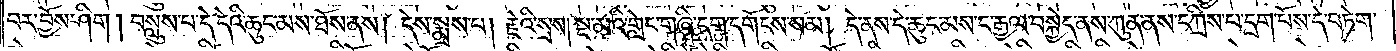བར་བྱོས་ཤིག། བསླུས་པ་དེ་དེའི་ཆུང་མས་ཐོས་ནས། དེས་སྨྲས་པ། རྗེའི་སྲས། སྔ་མའི་གླེང་གཞི་དག་དགོངས་སམ། དེ་ནས་དེ་ཆུང་མས་ང་རྒྱལ་བསྐྱེད་ནས་ཀུན་ནས་དཀྲིས་པ་དྲག་པོས་དེ་བཏེག་
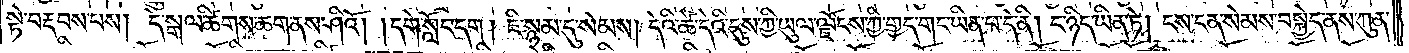སྟེ་བརྡབས་པས། དེ་སྒལ་ཚིགས་ཆག་ནས་ཤིའོ། །དགེ་སློང་དག། ཇི་སྙམ་དུ་སེམས། དེའི་ཚེ་དེའི་དུས་ཀྱི་ཡུལ་ལྗོངས་ཀྱི་གྱད་གང་ཡིན་པ་དེ་ནི། ང་ཉིད་ཡིན་ཏེ། ངས་ངན་སེམས་བསྐྱེད་ནས་ཀུན་
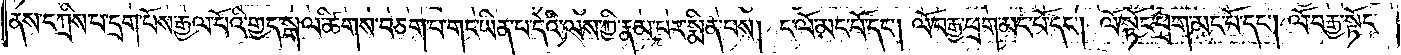ནས་དཀྲིས་པ་དྲག་པོས་རྒྱལ་པོའི་གྱད་སྒལ་ཚིགས་བཅག་པ་གང་ཡིན་པ་དེའི་ལས་ཀྱི་རྣམ་པར་སྨིན་པས། ང་ལོ་མང་པོ་དང༌། ལོ་བརྒྱ་ཕྲག་མང་པོ་དང༌། ལོ་སྟོང་ཕྲག་མང་པོ་དང༌། ལོ་བརྒྱ་སྟོང་
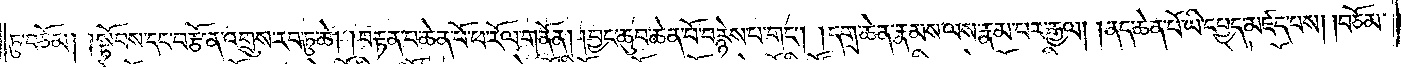ཏུ་བཅོམ། །སྟོབས་དང་བརྩོན་འགྲུས་རབ་ཏུ་ཆེ། །བརྟན་པ་ཆེན་པོ་ཕ་རོལ་གནོན། །བྱང་ཆུབ་ཆེན་པོ་བརྙེས་པ་གང༌། །དགྲ་ཆེན་རྣམས་ལས་རྣམ་པར་རྒྱལ། །ནད་ཆེན་པོ་ཡི་དཔྱད་མཛད་པས། །བཅོམ་
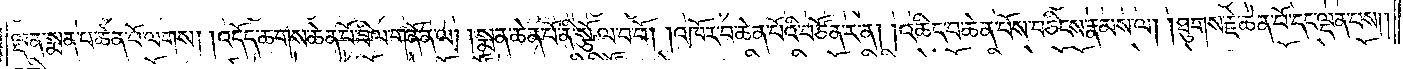ལྡན་སྨན་པ་ཆེན་པོ་ལགས། །འདོད་ཆགས་ཆེན་པོ་ཟིལ་གནོན་ལ། །སྨན་ཆེན་པོ་ནི་སྩོལ་བ་པོ། །འཁོར་བ་ཆེན་པོའི་བཙོན་ར་ན། །འཆིང་བ་ཆེན་པོས་བཅིངས་རྣམས་ལ། །ཐུགས་རྗེ་ཆེན་པོ་དང་ལྡན་པས༎
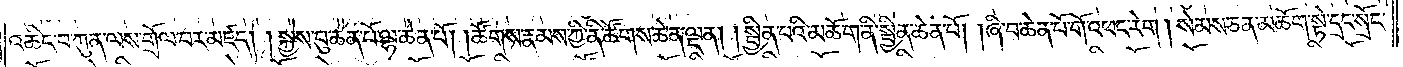འཆིང་བ་ཀུན་ལས་གྲོལ་བར་མཛད། །སྐྱེས་བུ་ཆེན་པོ་ལྷ་ཆེན་པོ། །ཚོགས་རྣམས་ཀྱི་ནི་ཚོགས་ཆེན་ལྡན། །སྦྱིན་པའི་མཆོག་ནི་སྦྱིན་ཆེན་པོ། །ཞི་བ་ཆེན་པོ་གོ་འཕང་རེག །སེམས་ཅན་མཆོག་སྟེ་དྲང་སྲོང་
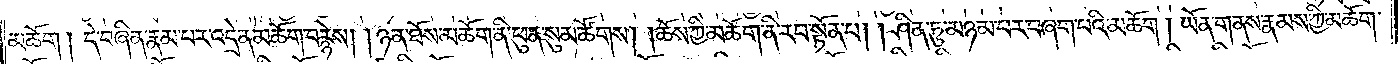མཆོག །དེ་བཞིན་རྣམ་པར་འདྲེན་མཆོག་བརྙེས། །ཉན་ཐོས་མཆོག་ནི་ཕུན་སུམ་ཚོགས། །ཆོས་ཀྱི་མཆོག་ནི་རབ་སྟོན་པ། །ཤིན་ཏུ་མཉམ་པར་བཞག་པའི་མཆོག །ཡོན་གནས་རྣམས་ཀྱི་མཆོག་
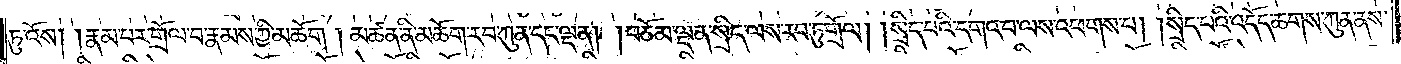ཏུ་འོས། །རྣམ་པར་གྲོལ་བ་རྣམས་ཀྱི་མཆོག །མཚན་ནི་མཆོག་རབ་ཀུན་དང་ལྡན། །བཅོམ་ལྡན་སྲིད་ལས་རབ་ཏུ་གྲོལ། །སྲིད་པའི་དགའ་བ་ལས་འཕགས་པ། །སྲིད་པའི་འདོད་ཆགས་ཀུན་ནས་
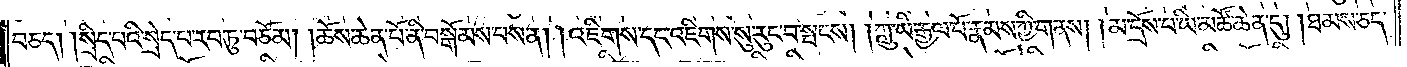བཅད། །སྲིད་པའི་སྲེད་པ་རབ་ཏུ་བཅོམ། །ཆོས་ཆེན་པོ་ནི་བསྒོམས་པས་ན། །འཇིགས་དང་འཇིགས་སུ་རུང་བ་སྤངས། །ཀླུ་ཡི་རྒྱལ་པོ་རྣམས་ཀྱི་གནས། །མ་དྲོས་པ་ཡི་མཚོ་ཆེན་དུ། །ཐམས་ཅད་
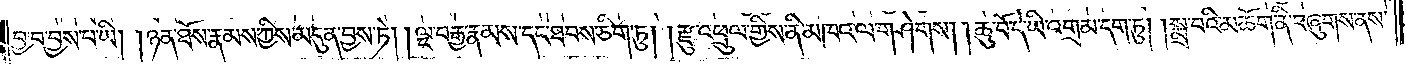བྱ་བ་བྱས་པ་ཡི། །ཉན་ཐོས་རྣམས་ཀྱིས་མདུན་བྱས་ཏེ། །ལྔ་བརྒྱ་རྣམས་དང་ཐབས་ཅིག་ཏུ། །རྫུ་འཕྲུལ་གྱིས་ནི་མཁའ་ལ་གཤེགས། །ཆུ་བོ་དེ་ཡི་འགྲམ་དག་ཏུ། །སྨྲ་བའི་མཆོག་ནི་བཞུགས་ནས་
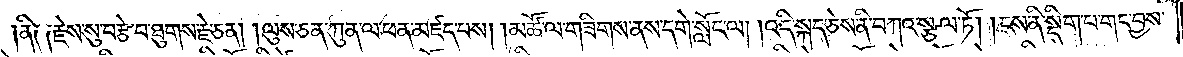ནི། །རྗེས་སུ་བརྩེ་བ་ཐུགས་རྗེ་ཅན། །ལུས་ཅན་ཀུན་ལ་ཕན་མཛད་པས། །མཚོ་ལ་གཟིགས་ནས་དགེ་སློང་ལ། །འདི་སྐད་ཅེས་ནི་བཀའ་སྩལ་ཏོ། །ངས་ནི་སྡིག་པ་གང་བྱས་
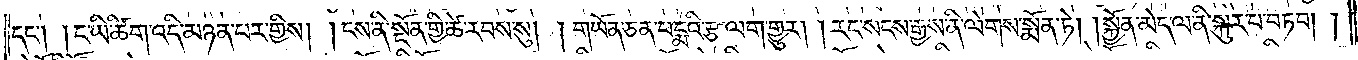དང༌། །ང་ཡི་ཚིག་འདི་མཉན་པར་གྱིས། །ངས་ནི་སྔོན་གྱི་ཚེ་རབས་སུ། །གཡོན་ཅན་པདྨའི་རྩ་ལག་གྱུར། །རང་སངས་རྒྱས་ནི་ལེགས་སྨོན་ཏེ། །སྐྱོན་མེད་ལ་ནི་སྐུར་བ་བཏབ། །
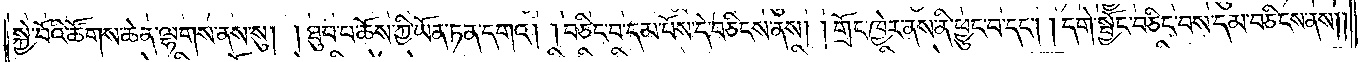སྐྱེ་བོའི་ཚོགས་ཆེན་ལྷགས་ནས་སུ། །ཐུབ་པ་ཆོས་ཀྱི་ཡོན་ཏན་དགའ། །བཅིང་བ་དམ་པོས་དེ་བཅིངས་ནས། །གྲོང་ཁྱེར་ནས་ནི་ཕྱུང་བ་དང༌། །དགེ་སྦྱོང་བཅིང་བས་དམ་བཅིངས་ནས། །
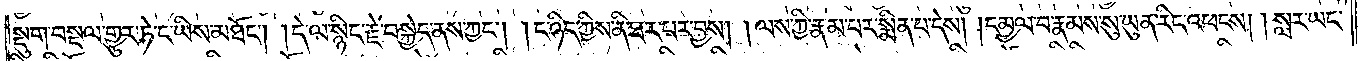སྡུག་བསྔལ་གྱུར་ཏེ་ང་ཡིས་མཐོང༌། །དེ་ལ་སྙིང་རྗེ་བསྐྱེད་ནས་ཀྱང༌། །ང་ཉིད་ཀྱིས་ནི་ཐར་པར་བྱས། །ལས་ཀྱི་རྣམ་པར་སྨིན་པ་དེས། །དམྱལ་བ་རྣམས་སུ་ཡུན་རིང་འཕངས། །སླར་ཡང་
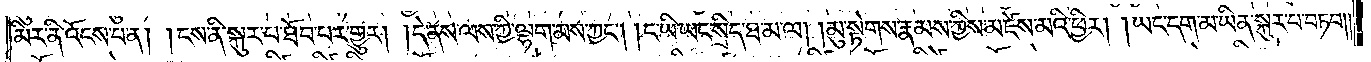མིར་ནི་འོངས་པ་ན། །ངས་ནི་སྐུར་བ་ཐོབ་པར་གྱུར། །དེ་ནས་ལས་ཀྱི་ལྷག་མས་ཀྱང༌། །ང་ཡི་ཡང་སྲིད་ཐ་མ་ལ། །མུ་སྟེགས་རྣམས་ཀྱིས་མཛེས་མའི་ཕྱིར། །ཡང་དག་མ་ཡིན་སྐུར་བ་བཏབ། །
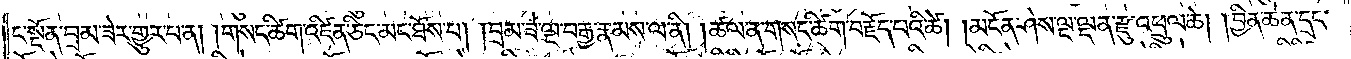ང་སྔོན་བྲམ་ཟེར་གྱུར་པ་ན། །གསང་ཚིག་འཛིན་ཅིང་མང་ཐོས་པ། །བྲམ་ཟེ་ལྔ་བརྒྱ་རྣམས་ལ་ནི། །ཚལ་ན་གསང་ཚིག་བརྗོད་པའི་ཚེ། །མངོན་ཤེས་ལྔ་ལྡན་རྫུ་འཕྲུལ་ཆེ། །བྱིན་ཆེན་དྲང་
